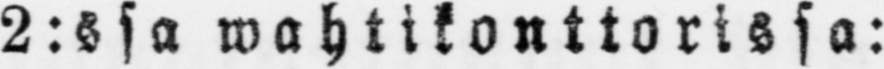2:ssa wahtikonttorissa:
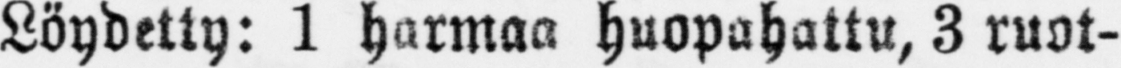Löydetty: 1 harmaa huopahattu, 3 ruot-
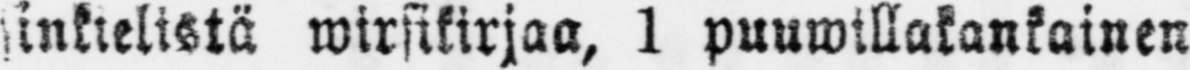sinkielistä wirsikirjaa, 1 puuwillakankainen
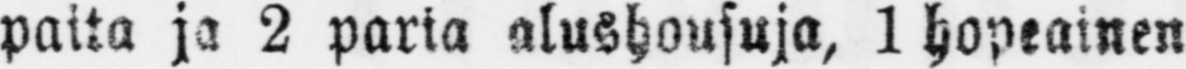paita ja 2 paria alushousuja, 1 hopeainen
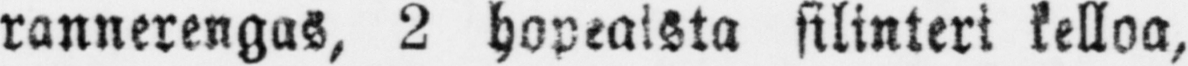rannerengas, 2 hopeaista silinteri kelloa,
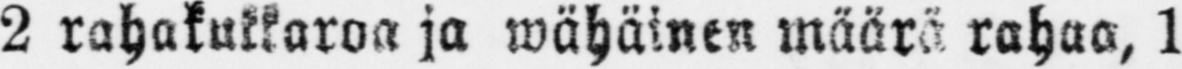2 rahakukkaroa ja wahäinen määrä rahaa, 1
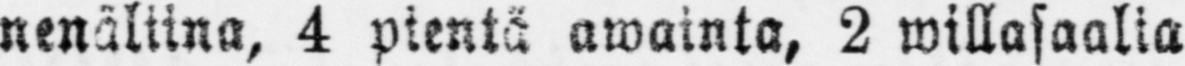nenäliina, 4 pientä awainta, 2 willasaalia
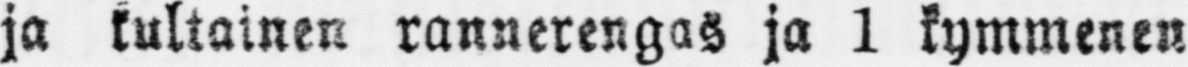ja kultainen rannerengas ja 1 kymmenen
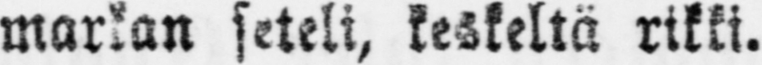markan seteli, keskeltä rikki.
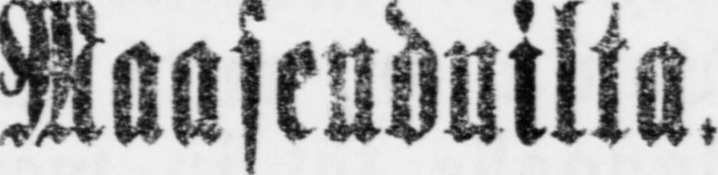Maaseuduilta.
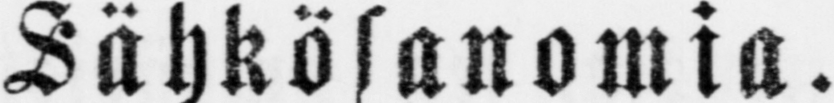Sähkösanomia.
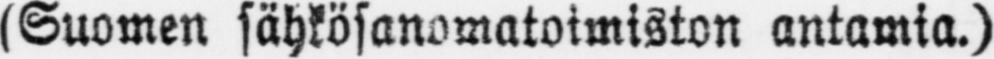(Suomen sähkösanomatoimiston antamia.)
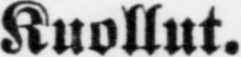Kuollut.
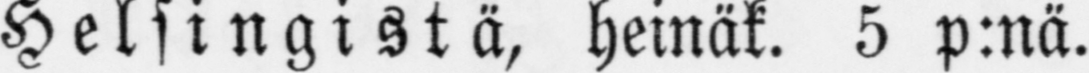Helsingistä, heinät. 5 p:nä.
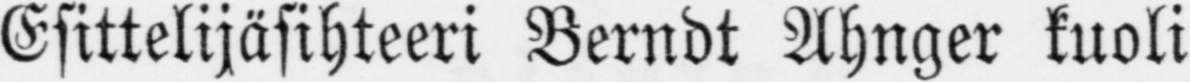Esittelijäsihteeri Berndt Ahnger kuoli
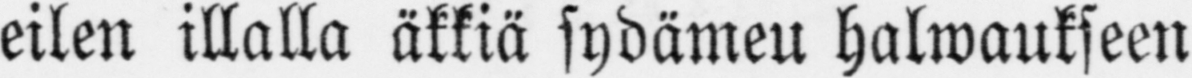eilen illalla äkkiä sydämeu halwaukseen
